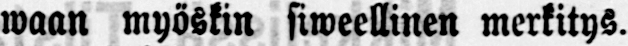waan myöskin siweellinen merkitys.
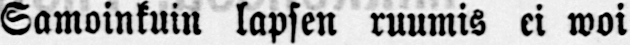Samoinkuin lapsen ruumis ei woi
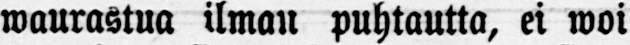waurastua ilman puhtautta, ei woi
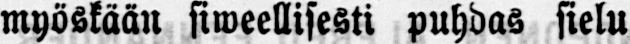myöskään siweellisesti puhdas sielu
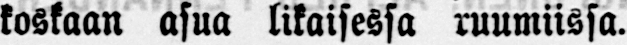koskaan asua likaisessa ruumiissa.
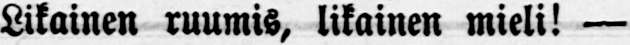Likainen ruumis, likainen mieli! —
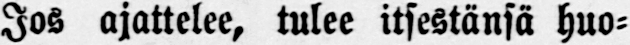Jos ajattelee, tulee itsestänsä huo-
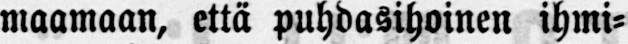maamaan, että puhdasihoinen ihmi-
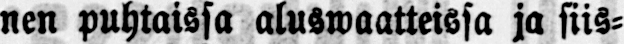nen puhtaissa aluswaatteissa ja siis-
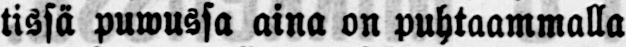tissä puwussa aina on puhtaammalla
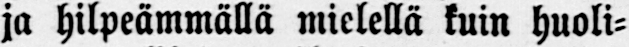ja hilpeämmällä mielellä kuin huoli-
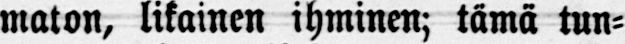maton, likainen ihminen; tämä tun-
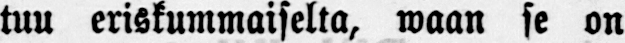tuu eriskummaiselta, maan se on
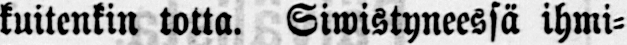kuitenkin totta. Siwistyneessä ihmi-
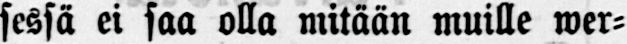sessä ei saa olla mitään muille wer-
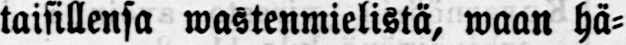taisillensa wastenmielistä, waan hä-
